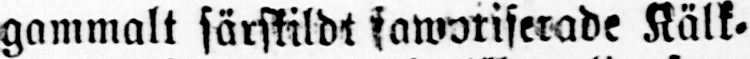gammalt särskildt faworiserade Kälk-
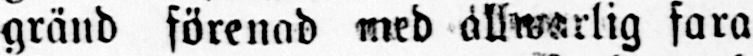gränd förenad med allwarlig fara
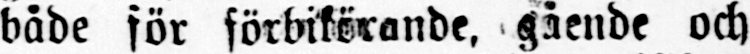både för förbiförande, gående och
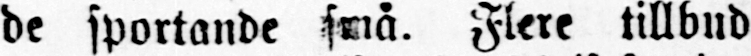de sportande små. Flere tillbud
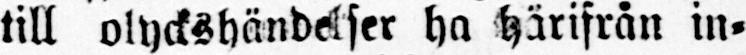till olyckshändelser ha härifrån in-
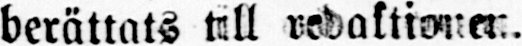berättats till redaktionen.
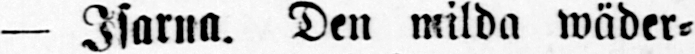— Isarna. Den milda wäder-
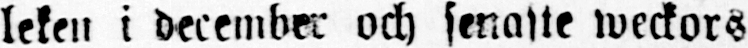leken i december och senaste weckors
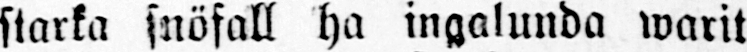starka snöfall ha ingalunda warit
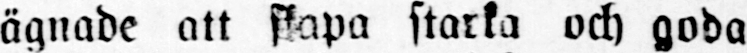ägnade att skapa starka och goda
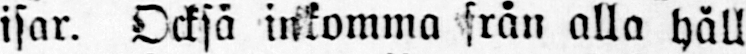isar. Också inkomma från alla håll
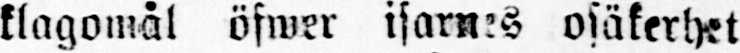klagomål öfwer isarnes osäkerhet
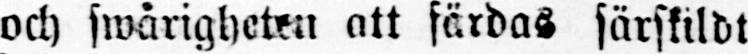och swårigheten att färdas särskildt
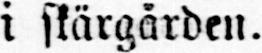i skärgården.
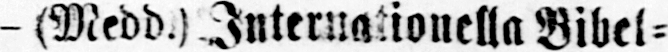- (Medd.) Internationella Bibel-
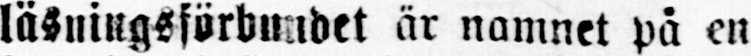läsningsförbundet är namnet på en
